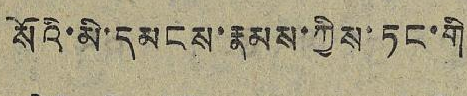སོའི་མི་དམངས་རྣམས་ཀྱིས་ཏང་གི
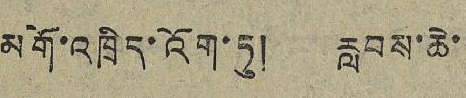མགོ་འཁྲིད་འོག་ཏུ། རླབས་ཆེ་
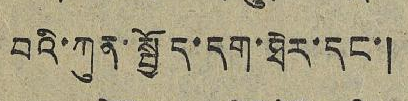བའི་ཀུན་སྦྱོད་དག་ཐེར་དང་།
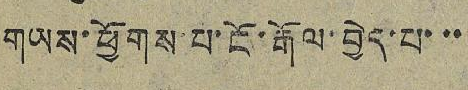གཡས་ཕྱོགས་པ་ངོ་རྒོལ་བྱེད་པ་་་
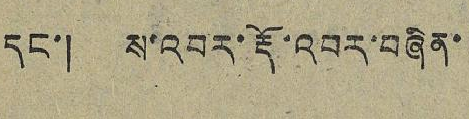དང་། ས་འབར་རྡོ་འབར་བཞིན་
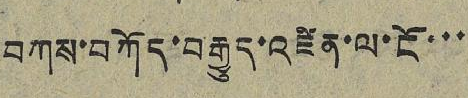བཀས་བཀོད་བརྒྱུད་འཛིན་ལ་ངོ་་་
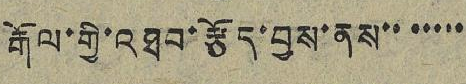རྒོལ་གྱི་འཐབ་རྩོད་བྱས་ནས་་་་་་་
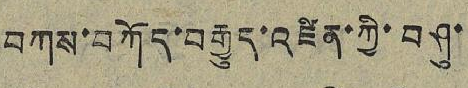བཀས་བཀོད་བརྒྱུད་འཛིན་ཀྱི་བཤུ་
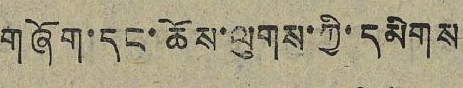གཞོག་དང་ཆོས་ལུགས་ཀྱི་དམིགས
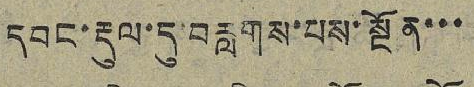དབང་རྡུལ་དུ་བརླགས་པས་སྔོན་་་
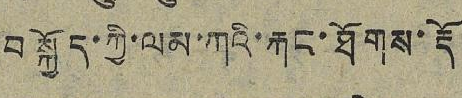བསྐྱོད་ཀྱི་ལམ་ཀའི་རྐང་ཐོགས་རྡོ
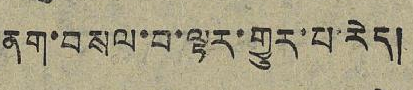ནག་བསལ་བ་ལྟར་གྱུར་པ་རེད།
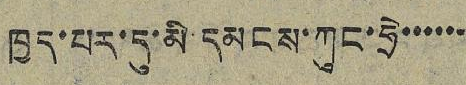ཁྱད་པར་དུ་མི དམངས་ཀུང་ཧྲེ་་་་་་
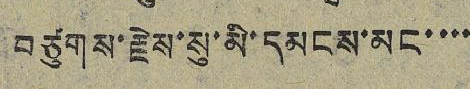བཙུགས་རྗེས་སུ་མི་དམངས་མང་་་་
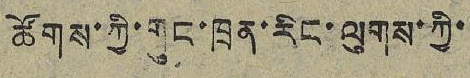ཚོགས་ཀྱི་གུང་ཁྲན་རིང་ལུགས་ཀྱི་
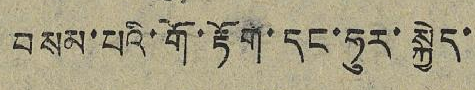བསམ་པའི་གོ་རྟོག་དང་ཧུར་སྐྱེད་
